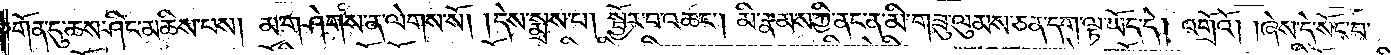གོན་དུ་ཆས་ཤིང་མཆིས་པས། མ་གཤེགས་ན་ལེགས་སོ། །དེས་སྨྲས་པ། སྦྱོར་བ་འཆང༌། མི་རྣམས་ཀྱི་ནང་ན་མི་གཟུ་ལུམས་ཅན་དག་ལྟ་ཡོད་དེ། འགྲོའོ། །ཞེས་དེ་སོང་བ་
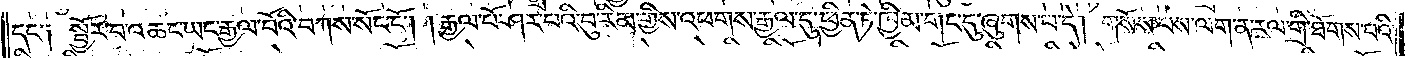དང་༑ སྦྱོར་བ་འཆང་ཡང་རྒྱལ་བོའི་བཀས་སོང་ངོ༌། །རྒྱལ་པོ་ཤར་པའི་བུ་རིམ་གྱིས་འཕགས་རྒྱལ་དུ་ཕྱིན་ཏེ་ཁྱིམ་གང་དུ་ཞུགས་པ་དེ། གསོས་པས་ལག་ན་རལ་གྲི་ཐོགས་པའི་
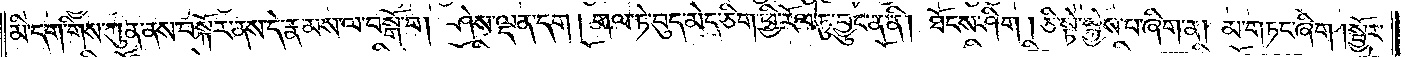མི་དག་གིས་ཀུན་ནས་བསྐོར་ནས་དེ་རྣམས་ལ་བསྒོ་བ། ཤེས་ལྡན་དག །གལ་ཏེ་བུད་མེད་ཅིག་ཕྱི་རོལ་ཏུ་བྱུང་ན་ནི། ཐོངས་ཤིག །ཅི་སྟེ་སྐྱེས་པ་ཞིག་ན། མ་གཏང་ཞིག །སྦྱོར་
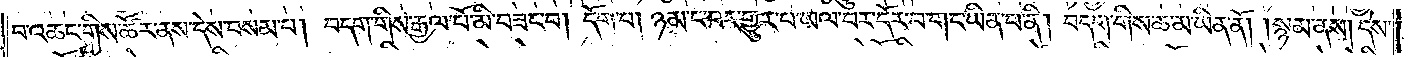བ་འཆང་གིས་ཚོར་ནས་དེས་བསམ་པ། བདག་གིས་རྒྱལ་པོ་མི་བཟང་བ། དོག་པ། ཉམ་ང་བར་གྱུར་པ་ཡལ་བར་དོར་བ་གང་ཡིན་པ་ནི། བདག་གིས་ཆ་མ་ཡིན་ནོ། །སྙམ་ནས། དེས་
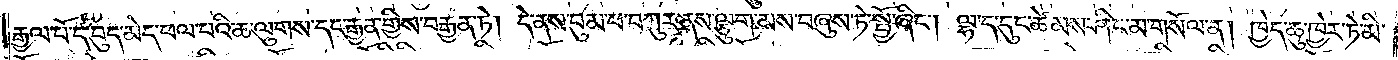རྒྱལ་པོ་དེ་བུད་མེད་ཕལ་པའི་ཆ་ལུགས་དང་རྒྱན་གྱིས་བརྒྱན་ཏེ། དེ་ནས་བུམ་པ་བཀུར་ནས་ལྕུག་མས་བཞུས་ཏེ་སྤྱོ་ཞིང༌། ལྷ་ད་དུང་ཚེམས་ཤིང་མ་གསོལ་ན། ཁྱེད་ཆུ་ཁྱེར་ཏེ་མི་
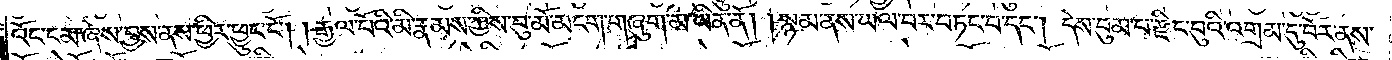འོང་ངམ་ཞེས་བྱས་ནས་ཕྱིར་ཕྱུང་ངོ༌། །རྒྱལ་པོའི་མི་རྣམས་ཀྱིས་བུ་མོ་མངག་གཞུག་མ་ཡིན་ནོ། །སྙམ་ནས་ཡལ་བར་བཏང་བ་དང༌། དེས་བུམ་པ་རྫིང་བུའི་འགྲམ་དུ་བོར་ནས་
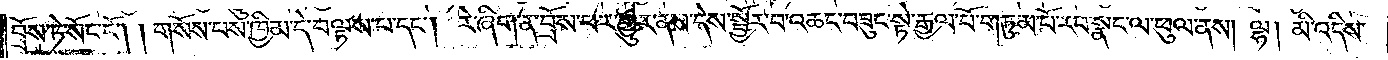བྲོས་ཏེ་སོང་ངོ༌། །གསོས་པས་ཁྱིམ་དེ་བལྟས་པ་དང༌། རེ་ཞིག་ན་བྲོས་པར་གྱུར་ནས་དེས་སྦྱོར་བ་འཆང་བཟུང་སྟེ་རྒྱལ་པོ་གཏུམ་པོ་རབ་སྣང་ལ་ཕུལ་ནས། ལྷ། མི་འདིས་
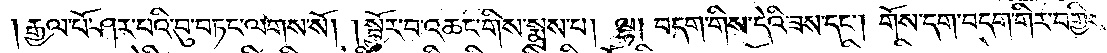རྒྱལ་པོ་ཤར་པའི་བུ་བཏང་ལགས་སོ། །སྦྱོར་བ་འཆང་གིས་སྨྲས་པ། ལྷ། བདག་གིས་དེའི་ཟས་དང༌། གོས་དག་བདག་གིར་བགྱིས་
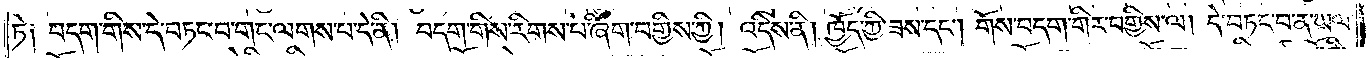ཏེ༑ བདག་གིས་དེ་བཏང་བ་གང་ལགས་པ་དེ་ནི། བདག་གིས་རིགས་པ་ཞིག་བགྱིས་ཀྱི། འདིས་ནི། ཁྱོད་ཀྱི་ཟས་དང༌། གོས་བདག་གིར་བགྱིས་ལ། དེ་བཏང་བ་ན་ཡལ་
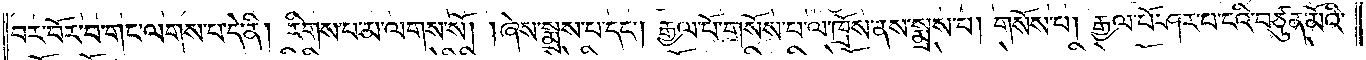བར་བོར་བ་གང་ལགས་པ་དེ་ནི། རིགས་པ་མ་ལགས་སོ། །ཞེས་སྨྲས་པ་དང༌། རྒྱལ་པོ་གསོས་པ་ལ་ཁྲོས་ནས་སྨྲས་པ། གསོས་པ། རྒྱལ་པོ་ཤར་པ་ངའི་བཙུན་མོའི་
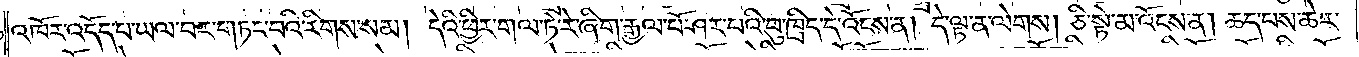འཁོར་འདོད་པ་ཡལ་བར་གཏང་བའི་རིགས་སམ། དེའི་ཕྱིར་གལ་ཏེ་རེ་ཞིག་རྒྱལ་པོ་ཤར་པའི་བུ་ཁྲིད་དེ་འོངས་ན། དེ་ལྟ་ན་ལེགས། ཅི་སྟེ་མ་འོངས་ན། ཆད་པས་ཆེར་
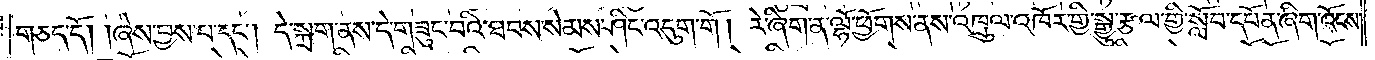གཅད་དོ། །ཞེས་བྱས་པ་དང༌། དེ་སྐྲག་ནས་དེ་གཟུང་བའི་ཐབས་སེམས་ཤིང་འདུག་གོ །རེ་ཞིག་ན་ལྷོ་ཕྱོགས་ནས་འཁྲུལ་འཁོར་གྱི་སྒྱུ་རྩལ་གྱི་སློབ་དཔོན་ཞིག་འོངས་
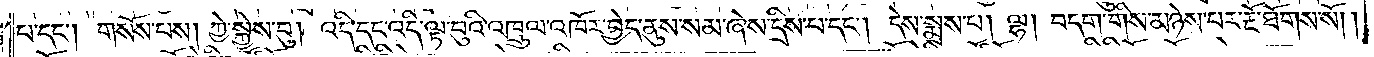པ་དང༌། གསོས་པས། ཀྱེ་སྐྱེས་བུ། འདི་དང་འདི་ལྟ་བུའི་འཁྲུལ་འཁོར་བྱེད་ནུས་སམ་ཞེས་དྲིས་པ་དང༌། དེས་སྨྲས་པ། ལྷ། བདག་གིས་མཉེས་པར་རྔོ་ཐོགས་སོ། །
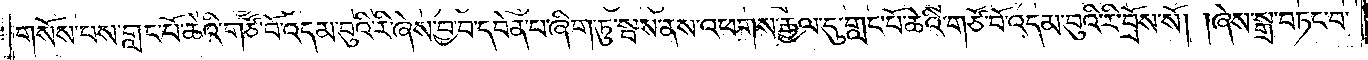གསོས་པས་གླང་པོ་ཆེའི་གཙོ་བོ་འདམ་བུའི་རི་ཞེས་བྱ་བ་དབེན་པ་ཞིག་ཏུ་སྦས་ནས་འཕགས་རྒྱལ་དུ་གླང་པོ་ཆེའི་གཙོ་བོ་འདམ་བུའི་རི་བྲོས་སོ། །ཞེས་སྒྲ་བཏང་བ་
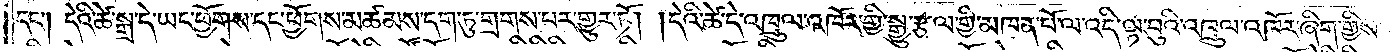དང༌། དེའི་ཚེ་སྒྲ་དེ་ཡང་ཕྱོགས་དང་ཕྱོགས་མཚམས་དག་ཏུ་གྲགས་པར་གྱུར་ཏོ། །དེའི་ཚེ་དེ་འཁྲུལ་འཁོར་གྱི་སྒྱུ་རྩལ་གྱི་མཁན་པོ་ལ་འདི་ལྟ་བུའི་འཁྲུལ་འཁོར་ཞིག་གྱིས་
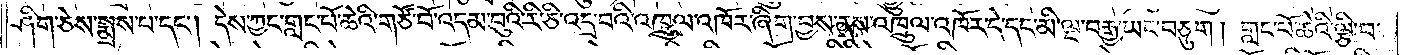ཤིག་ཅེས་སྨྲས་པ་དང༌། དེས་ཀྱང་གླང་པོ་ཆེའི་གཙོ་བོ་འདམ་བུའི་རི་ཅི་འདྲ་བའི་འཁྲུལ་འཁོར་ཞིག་བྱས་ནས་འཁྲུལ་འཁོར་དེ་དང་མི་ལྔ་བརྒྱ་ཡང་བཅུག །གླང་པོ་ཆེའི་ལྕི་བ་
